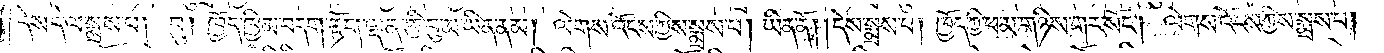དེས་དེ་ལ་སྨྲས་པ། བུ། ཁྱོད་ཁྱིམ་བདག་རྟོག་ལྡན་གྱི་བུ་མ་ཡིན་ནམ། ལེགས་འོངས་ཀྱིས་སྨྲས་པ། ཡིན་ནོ། །དེས་སྨྲས་པ། ཁྱོད་ཀྱི་ཕ་མ་གཉིས་གར་སོང༌། ལེགས་འོངས་ཀྱིས་སྨྲས་པ།
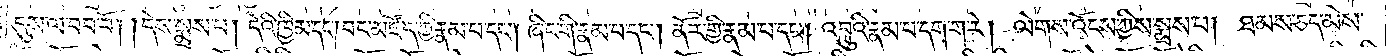དུས་ལ་བབ་བོ། །དེས་སྨྲས་པ། དེའི་ཁྱིམ་དང༌། བང་མཛོད་ཀྱི་རྣམ་པ་དང༌། ཞིང་གི་རྣམ་པ་དང༌། ནོར་གྱི་རྣམ་པ་དང༌། འབྲུའི་རྣམ་པ་དག་ག་རེ། ལེགས་འོངས་ཀྱིས་སྨྲས་པ། ཐམས་ཅད་མེས་
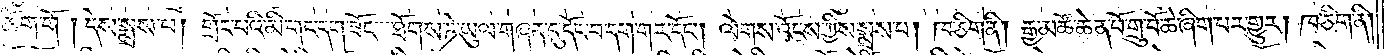ཚིག་གོ །དེས་སྨྲས་པ། གྲོང་བའི་མི་གང་དག་ཟོང་ཐོགས་ཏེ་ཡུལ་གཞན་དུ་དོང་བ་དག་གར་དོང༌། ལེགས་འོངས་ཀྱིས་སྨྲས་པ། ཁ་ཅིག་ནི། རྒྱ་མཚོ་ཆེན་པོ་གྲུ་བོ་ཆེ་ཞིག་པར་གྱུར། ཁ་ཅིག་ནི།
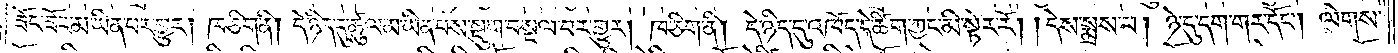ཟོང་ཟོང་མ་ཡིན་པར་གྱུར། ཁ་ཅིག་ནི། དེ་ཉིད་དུ་ཚུལ་མ་ཡིན་པས་སྡུག་བསྔལ་བར་གྱུར། ཁ་ཅིག་ནི། དེ་ཉིད་དུ་འཁོད་དེ་ཚིག་ཀྱང་མི་སྟེར་རོ། །དེས་སྨྲས་པ། ཉེ་དུ་དག་གར་དོང༌། ལེགས་
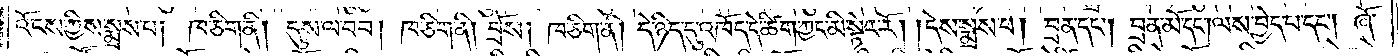འོངས་ཀྱིས་སྨྲས་པ། ཁ་ཅིག་ནི། དུས་ལ་བབ། ཁ་ཅིག་ནི། བྲོས། ཁ་ཅིག་ནི། དེ་ཉིད་དུ་འཁོད་དེ་ཚིག་ཀྱང་མི་སྟེར་རོ། །དེས་སྨྲས་པ། བྲན་དང༌། བྲན་མོ་དང༌། ལས་བྱེད་པ་དང༌། ཞོ་
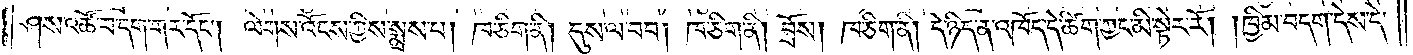ཤས་འཚོ་བ་དག་གར་དོང༌། ལེགས་འོངས་ཀྱིས་སྨྲས་པ། ཁ་ཅིག་ནི། དུས་ལ་བབ། ཁ་ཅིག་ནི། བྲོས། ཁ་ཅིག་ནི། དེ་ཉིད་ན་འཁོད་དེ་ཆིག་ཀྱང་མི་སྟེར་རོ། །ཁྱིམ་བདག་དེས་དེ་
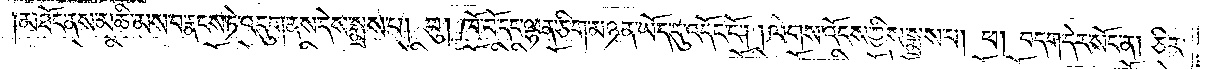མཐོང་ནས་མཆི་མས་བརྣངས་ཏེ་འདུག་ནས་དེས་སྨྲས་པ། བུ། ཁོ་བོ་དང་ལྷན་ཅིག་མཉན་ཡོད་དུ་འདོང་ངོ༌། །ལེགས་འོངས་ཀྱིས་སྨྲས་པ། ཕ། བདག་དེར་སོང་ན། ཅིར་
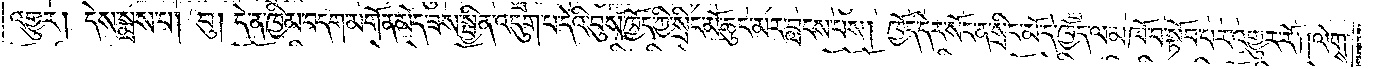འགྱུར། དེས་སྨྲས་པ། བུ། དེ་ན་ཁྱིམ་བདག་མགོན་མེད་ཟས་སྦྱིན་འདུག་པ་དེའི་བུས་ཁྱོད་ཀྱི་སྲིང་མོ་ཆུང་མར་བླངས་པས། ཁྱོད་དེར་སོང་ན་སྲིང་མོ་དེ་ཁྱོད་ལ་མཁོ་བ་སྟོབ་པར་འགྱུར་རོ། །ལེགས་
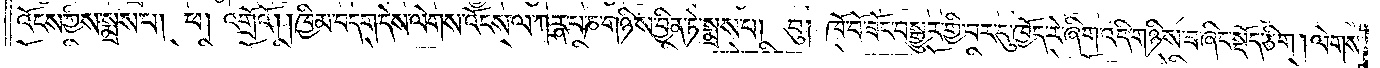འོངས་ཀྱིས་སྨྲས་པ། ཕ། འགྲོའོ། །ཁྱིམ་བདག་དེས་ལེགས་འོངས་ལ་ཀཪྴ་པ་ཎ་གཉིས་བྱིན་ཏེ་སྨྲས་པ། བུ། ཁོ་བོ་ཟོང་བསྒྱུར་གྱི་བར་དུ་ཁྱོད་རེ་ཞིག་འདི་གཉིས་ཟ་ཞིང་སྡོད་ཅིག །ལེགས་
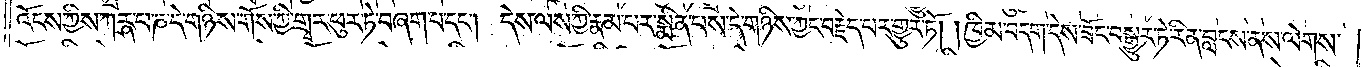འོངས་ཀྱིས་ཀཪྴ་པ་ཎ་དེ་གཉིས་གོས་ཀྱི་གྲྭར་ཕུར་ཏེ་བཞག་པ་དང༌། དེས་ལས་ཀྱི་རྣམ་པར་སྨིན་པས་དེ་གཉིས་ཀྱང་བརྗེད་པར་གྱུར་ཏོ། །ཁྱིམ་བདག་དེས་ཟོང་བསྒྱུར་ཏེ་རིན་བླངས་ནས་ལེགས་
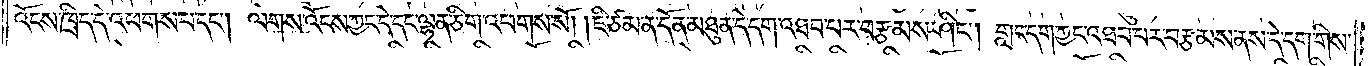འོངས་ཁྲིད་དེ་འཕགས་པ་དང༌། ལེགས་འོངས་ཀྱང་དེ་དང་ལྷན་ཅིག་འཕགས་སོ། །ཇི་ཙམ་ན་དོན་མཐུན་དེ་དག་འཐབ་པར་བརྩམས་ཤིང༌། གླང་དག་ཀྱང་འཐབ་པར་བརྩམས་ནས་དེ་དག་གིས་
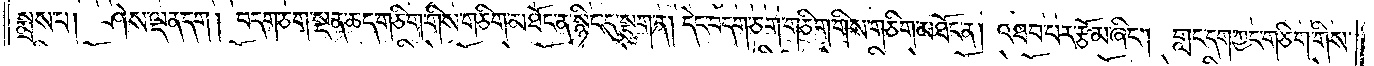སྨྲས་པ། ཤེས་ལྡན་དག། བདག་ཅག་སྔན་ཆད་གཅིག་གིས་གཅིག་མཐོང་ན་སྙིང་དུ་སྡུག་ན། དེང་བདག་ཅག་གཅིག་གིས་གཅིག་མཐོང་ན། འཐབ་པར་རྩོམ་ཞིང༌། གླང་དག་ཀྱང་གཅིག་གིས་
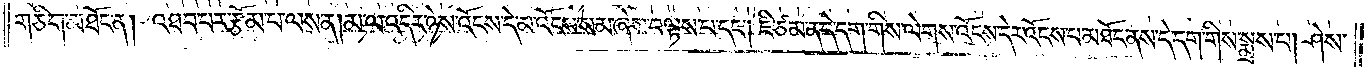གཅིག་མཐོང་ན། འཐབ་པར་རྩོམ་པ་ལས་ན། མ་ལ་འདིར་ཉེས་འོངས་དེ་མ་འོངས་སམ་ཞེས་བལྟས་པ་དང༌། ཇི་ཙམ་ན་དེ་དག་གིས་ལེགས་འོངས་དེར་འོངས་པ་མཐོང་ནས་དེ་དག་གིས་སྨྲས་པ། ཤེས་
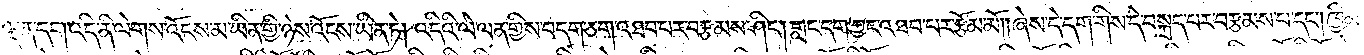ལྡན་དག་འདི་ནི་ལེགས་འོངས་མ་ཡིན་གྱི་ཉེས་འོངས་ཡིན་ཏེ། འདིའི་ལེ་ལན་གྱིས་བདག་ཅག་འཐབ་པར་བརྩམས་ཤིང༌། གླང་དག་ཀྱང་འཐབ་པར་རྩོམ་མོ། །ཞེས་དེ་དག་གིས་དེ་བསྐྲད་པར་བརྩམས་པ་དང༌། ཁྱིམ་
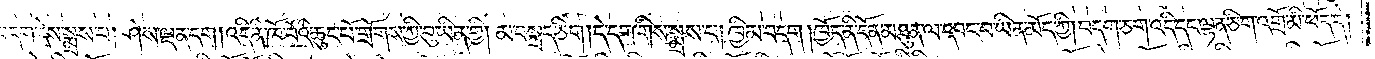བདག་དེས་སྨྲས་པ། ཤེས་ལྡན་དག །འདི་ནི་ཁོ་བོའི་ཆུང་པོ་གྲོགས་ཀྱི་བུ་ཡིན་གྱི། མ་བསྐྲད་ཅིག །དེ་དག་གིས་སྨྲས་པ། ཁྱིམ་བདག །ཁྱོད་ནི་དོན་མཐུན་ལ་དབང་བ་ཡིན་མོད་ཀྱི། བདག་ཅག་འདི་དང་ལྷན་ཅིག་འགྲོ་མི་ཕོད་དེ།
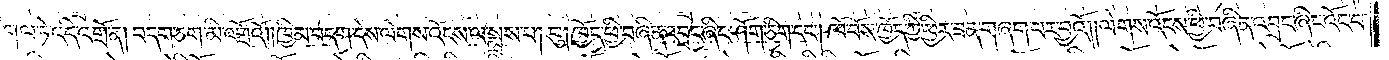གལ་ཏེ་འདི་འགྲོ་ན། བདག་ཅག་མི་འགྲོའོ། །ཁྱིམ་བདག་དེས་ལེགས་འོངས་ལ་སྨྲས་པ། བུ། ཁྱོད་ཕྱི་བཞིན་འབྲང་ཞིང་ཤོག་ཅིག་དང༌། ཁོ་བོས་ཁྱོད་ཀྱི་ཕྱིར་ཟན་གཞག་པར་བྱའོ། །ལེགས་འོངས་ཕྱི་བཞིན་འབྲང་ཞིང་འོང་བ་
